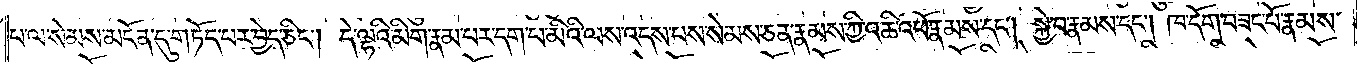པ་ལ་སེམས་མངོན་དུ་གཏོད་པར་བྱེད་ཅིང༌། དེ་ལྷའི་མིག་རྣམ་པར་དག་པ་མིའི་ལས་འདས་པས་སེམས་ཅན་རྣམས་ཀྱི་འཆི་འཕོ་རྣམས་དང༌། སྐྱེ་བ་རྣམས་དང༌། ཁ་དོག་བཟང་པོ་རྣམས་
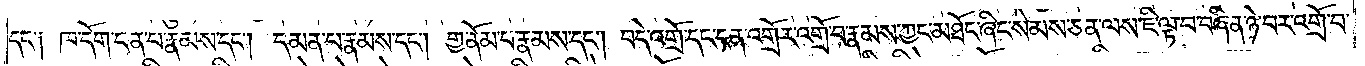དང༌། ཁ་དོག་ངན་པ་རྣམས་དང༌། དམན་པ་རྣམས་དང༌། གྱ་ནོམ་པ་རྣམས་དང༌། བདེ་འགྲོ་དང་ངན་འགྲོར་འགྲོ་བ་རྣམས་ཀྱང་མཐོང་ཞིང་སེམས་ཅན་ལས་ཇི་ལྟ་བ་བཞིན་ཉེ་བར་འགྲོ་བ་
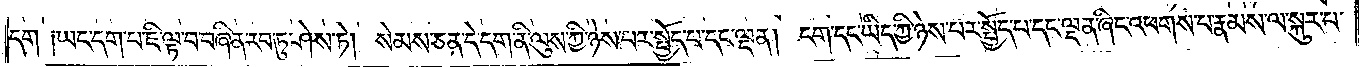དག ༑ཡང་དག་པ་ཇི་ལྟ་བ་བཞིན་རབ་ཏུ་ཤེས་ཏེ། སེམས་ཅན་དེ་དག་ནི་ལུས་ཀྱི་ཉེས་པར་སྤྱོད་པ་དང་ལྡན། ངག་དང་ཡིད་ཀྱི་ཉེས་པར་སྤྱོད་པ་དང་ལྡན་ཞིང་འཕགས་པ་རྣམས་ལ་སྐུར་པ་
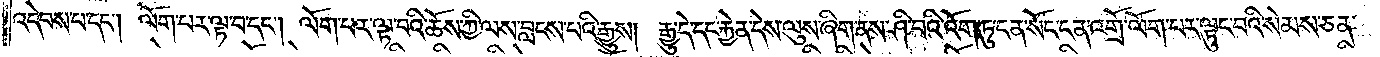འདེབས་པ་དང༌། ལོག་པར་ལྟ་བ་དང༌། ལོག་པར་ལྟ་བའི་ཆོས་ཀྱི་ལས་བླངས་པའི་རྒྱུས།  རྒྱུ་དེ་དང་རྐྱེན་དེས་ལུས་ཞིག་ནས་ཤི་བའི་འོག་ཏུ་ངན་སོང་ངན་འགྲོ་ལོག་པར་ལྟུང་བའི་སེམས་ཅན་
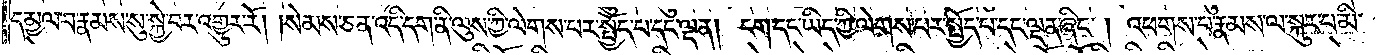དམྱལ་བ་རྣམས་སུ་སྐྱེ་བར་འགྱུར་རོ། །སེམས་ཅན་འདི་དག་ནི་ལུས་ཀྱི་ལེགས་པར་སྤྱོད་པ་དང་ལྡན། ངག་དང་ཡིད་ཀྱི་ལེགས་པར་སྤྱོད་པ་དང་ལྡན་ཞིང༌། འཕགས་པ་རྣམས་ལ་སྐུར་པ་མི་
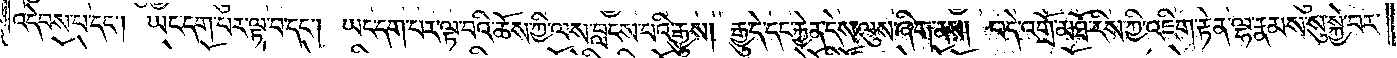འདེབས་པ་དང༌། ཡང་དག་པར་ལྟ་བ་དང༌། ཡང་དག་པར་ལྟ་བའི་ཆོས་ཀྱི་ལས་བླངས་པའི་རྒྱུས། རྒྱུ་དེ་དང་རྐྱེན་དེས་ལུས་ཞིག་ནས། བདེ་འགྲོ་མཐོ་རིས་ཀྱི་འཇིག་རྟེན་ལྷ་རྣམས་སུ་སྐྱེ་བར་
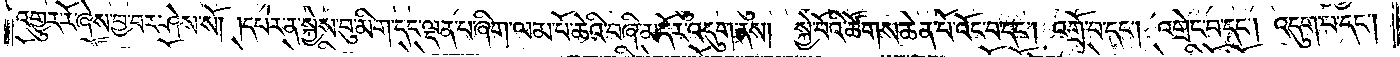འགྱུར་རོ་ཞེས་བྱ་བར་ཤེས་སོ། །དཔེར་ན་སྐྱེས་བུ་མིག་དང་ལྡན་པ་ཞིག་ལམ་པོ་ཆེའི་བཞི་མདོར་འདུག་ནས། སྐྱེ་བོའི་ཚོགས་ཆེན་པོ་འོང་བ་དང༌། འགྲོ་བ་དང༌། འགྲེང་བ་དང༌། འདུག་པ་དང༌།
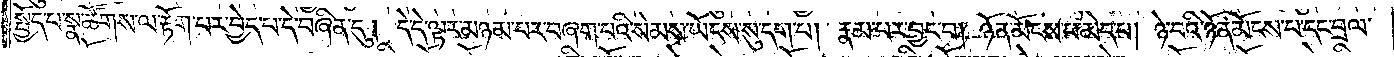སྤྱོད་པ་སྣ་ཚོགས་ལ་རྟོག་པར་བྱེད་པ་དེ་བཞིན་དུ། དེ་དེ་ལྟར་མཉམ་པར་བཞག་པའི་སེམས་ཡོངས་སུ་དག་པ། རྣམ་པར་བྱང་བ། ཉོན་མོངས་པ་མེད་པ། ཉེ་བའི་ཉོན་མོངས་པ་དང་བྲལ་
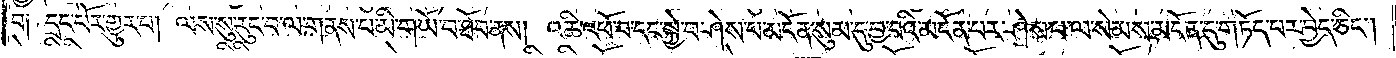བ། དྲང་པོར་གྱུར་པ། ལས་སུ་རུང་བ་ལ་གནས་པ་མི་གཡོ་བ་ཐོབ་ནས། འཆི་འཕོ་བ་དང་སྐྱེ་བ་ཤེས་པ་མངོན་སུམ་དུ་བྱ་བའི་མངོན་པར་ཤེས་པ་ལ་སེམས་མངོན་དུ་གཏོད་པར་བྱེད་ཅིང༌།
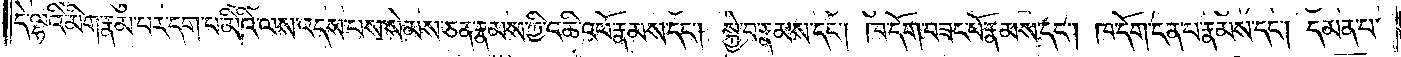དེ་ལྷའི་མིག་རྣམ་པར་དག་པ་མིའི་ལས་འདས་པས་སེམས་ཅན་རྣམས་ཀྱི་འཆི་འཕོ་རྣམས་དང༌། སྐྱེ་བ་རྣམས་དང༌། ཁ་དོག་བཟང་པོ་རྣམས་དང༌། ཁ་དོག་ངན་པ་རྣམས་དང༌། དམན་པ་
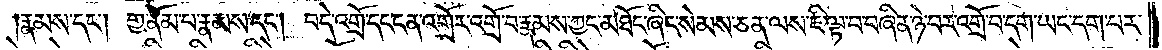རྣམས་དང༌། གྱ་ནོམ་པ་རྣམས་དང༌། བདེ་འགྲོ་དང་ངན་འགྲོར་འགྲོ་བ་རྣམས་ཀྱང་མཐོང་ཞིང་སེམས་ཅན་ལས་ཇི་ལྟ་བ་བཞིན་ཉེ་བར་འགྲོ་བ་དག་ཡང་དག་པར་
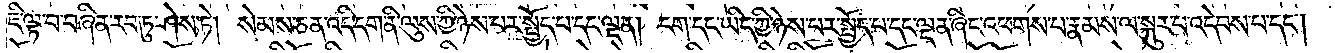ཇི་ལྟ་བ་བཞིན་རབ་ཏུ་ཤེས་ཏེ། སེམས་ཅན་འདི་དག་ནི་ལུས་ཀྱི་ཉེས་པར་སྤྱོད་པ་དང་ལྡན། ངག་དང་ཡིད་ཀྱི་ཉེས་པར་སྤྱོད་པ་དང་ལྡན་ཞིང་འཕགས་པ་རྣམས་ལ་སྐུར་པ་འདེབས་པ་དང༌།
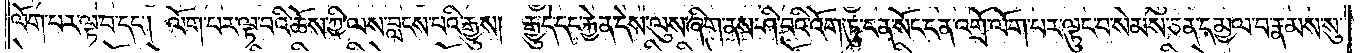ལོག་པར་ལྟ་བ་དང༌། ལོག་པར་ལྟ་བའི་ཆོས་ཀྱི་ལས་བླངས་པའི་རྒྱུས། རྒྱུ་དེ་དང་རྐྱེན་དེས་ལུས་ཞིག་ནས་ཤི་བའི་འོག་ཏུ་ངན་སོང་ངན་འགྲོ་ལོག་པར་ལྟུང་བ་སེམས་ཅན་དམྱལ་བ་རྣམས་སུ་
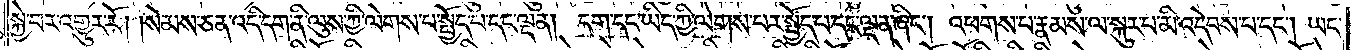སྐྱེ་བར་འགྱུར་རོ། །སེམས་ཅན་འདི་དག་ནི་ལུས་ཀྱི་ལེགས་པ་སྤྱོད་པ་དང་ལྡན། ངག་དང་ཡིད་ཀྱི་ལེགས་པར་སྤྱོད་པ་དང་ལྡན་ཞིང༌། འཕགས་པ་རྣམས་ལ་སྐུར་པ་མི་འདེབས་པ་དང༌། ཡང་
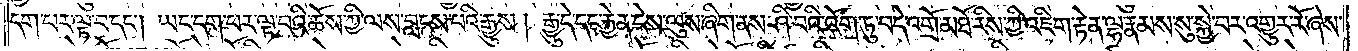དག་པར་ལྟ་བ་དང༌། ཡང་དག་པར་ལྟ་བའི་ཆོས་ཀྱི་ལས་བླངས་པའི་རྒྱུས། རྒྱུ་དེ་དང་རྐྱེན་དེས་ལུས་ཞིག་ནས་ཤི་བའི་འོག་ཏུ་བདེ་འགྲོ་མཐོ་རིས་ཀྱི་འཇིག་རྟེན་ལྷ་རྣམས་སུ་སྐྱེ་བར་འགྱུར་རོ་ཞེས་
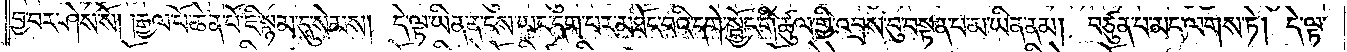བྱ་བར་ཤེས་སོ། །རྒྱལ་པོ་ཆེན་པོ་ཇི་སྙམ་དུ་སེམས། དེ་ལྟ་ཡིན་ན་ངས་ཡང་དག་པར་མཐོང་བའི་དགེ་སྦྱོང་གི་ཚུལ་གྱི་འབྲས་བུ་བསྟན་པ་མ་ཡིན་ནམ། བཙུན་པ་མང་ལགས་ཏེ། དེ་ལྟ་
